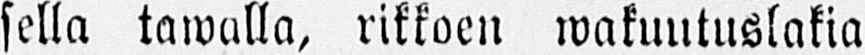sella tawalla, rikkoen wakuutuslakia
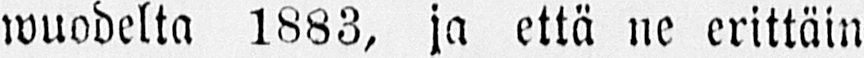wuodelta 1883, ja että ne erittäin
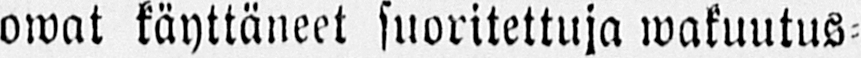owat käyttäneet suoritettuja wakuutu-
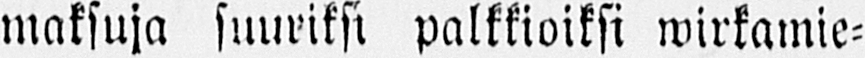maksuja suuriksi palkkioiksi wirkamie-
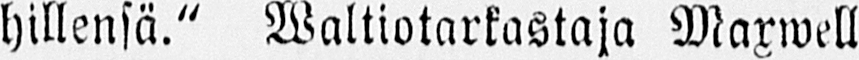hillensä." Waltiotarkastaja Maxwell
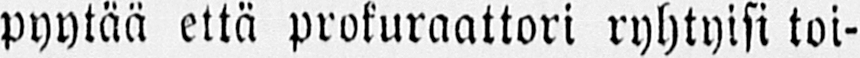pyytää että prokuraattori ryhtyisi toi-
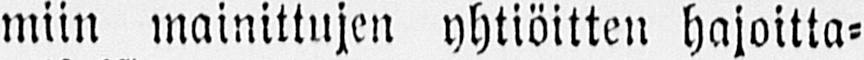miin mainittujen yhtiöitten hajoitta-
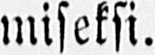miseksi.
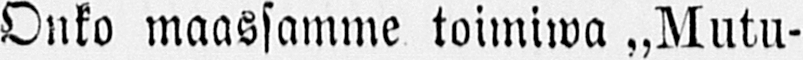Onko maassamme toimiwa „Mutu-
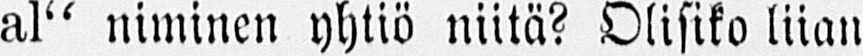al" niminen yhtiö niitä? Olisiko liian
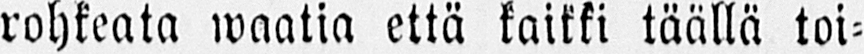rohkeata waatia että kaikki täällä toi-
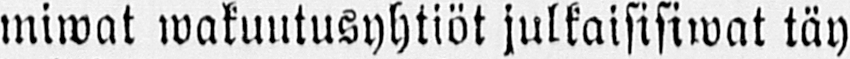miwat wakuutusyhtiöt julkaisisiwat täy-
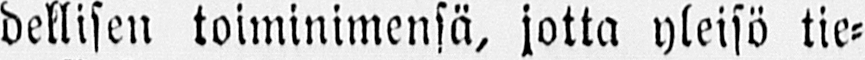dellisen toiminimensä, jotta yleisö tie-
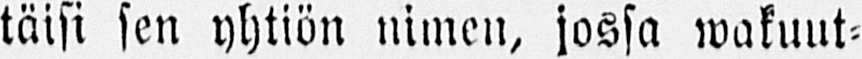täisi sen yhtiön nimen, jossa wakuut-
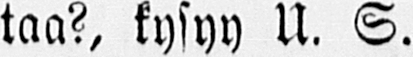taa?, kysyy U. S.
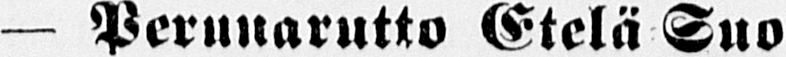— Perunarutto Etelä Suo-
